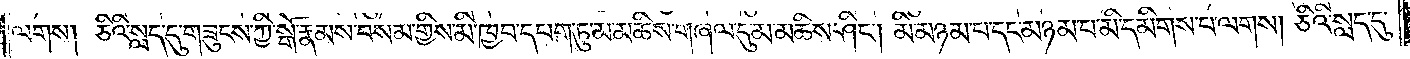ལགས། ཅིའི་སླད་དུ་གཟུངས་ཀྱི་སྒོ་རྣམས་བསམ་གྱིས་མི་ཁྱབ་དཔག་ཏུ་མ་མཆིས་གཞལ་དུ་མ་མཆིས་ཤིང༌། མི་མཉམ་པ་དང་མཉམ་པ་མི་དམིགས་པ་ལགས། ཅིའི་སླད་དུ་
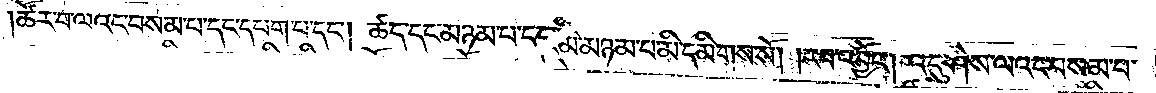ཚོར་བ་ལའང་བསམ་པ་དང་དཔག་པ་དང༌། ཚད་དང་མཉམ་པ་དང་མི་མཉམ་པ་མི་དམིགས་སོ། །རབ་འབྱོར། འདུ་ཤེས་ལའང་བསམ་པ་
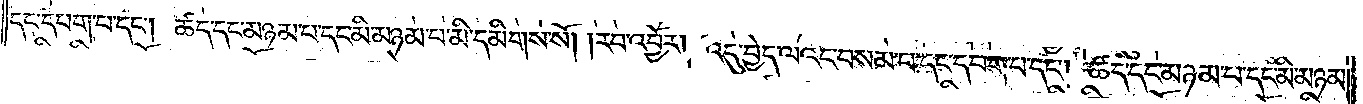དང་དཔག་པ་དང༌། ཚད་དང་མཉམ་པ་དང་མི་མཉམ་པ་མི་དམིགས་སོ། །རབ་འབྱོར། འདུ་བྱེད་ལའང་བསམ་པ་དང་དཔག་པ་དང༌། ཚད་དང་མཉམ་པ་དང་མི་མཉམ་
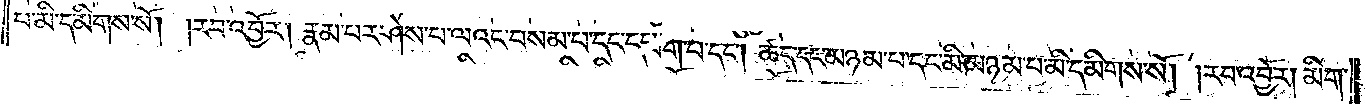པ་མི་དམིགས་སོ། །རབ་འབྱོར། རྣམ་པར་ཤེས་པ་ལའང་བསམ་པ་དང་དཔག་པ་དང༌། ཚད་དང་མཉམ་པ་དང་མི་མཉམ་པ་མི་དམིགས་སོ། །རབ་འབྱོར། མིག་
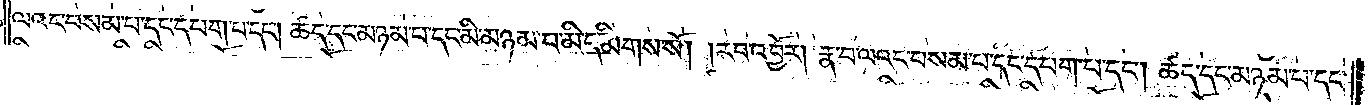ལའང་བསམ་པ་དང་དཔག་པ་དང༌། ཚད་དང་མཉམ་པ་དང་མི་མཉམ་པ་མི་དམིགས་སོ། །རབ་འབྱོར།རྣ་བ་ལའང་བསམ་པ་དང་དཔག་པ་དང༌། ཚད་དང་མཉམ་པ་དང་
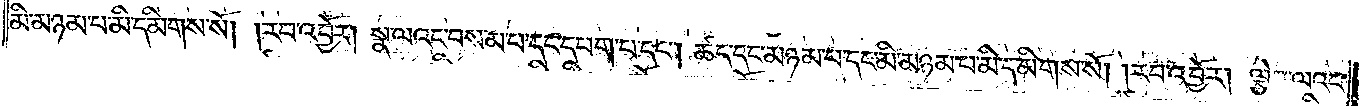མི་མཉམ་པ་མི་དམིགས་སོ། །རབ་འབྱོར། སྣ་ལའང་བསམ་པ་དང་དཔག་པ་དང༌། ཚད་དང་མཉམ་པ་དང་མི་མཉམ་པ་མི་དམིགས་སོ། །རབ་འབྱོར། ལྕེའི་ལའང་
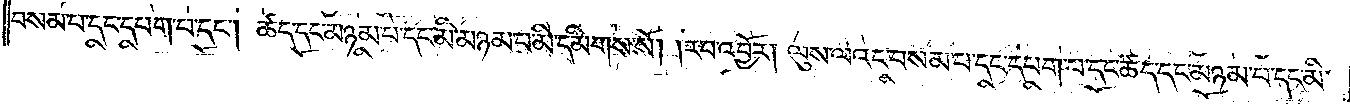བསམ་པ་དང་དཔག་པ་དང༌། ཚད་དང་མཉམ་པ་དང་མི་མཉམ་པ་མི་དམིགས་སོ། །རབ་འབྱོར། ལུས་ལའང་བསམ་པ་དང་དཔག་པ་དང་ཚད་དང་མཉམ་པ་དང་མི་
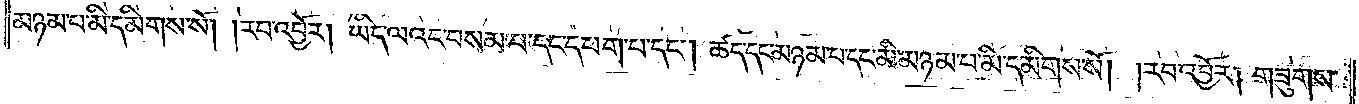མཉམ་པ་མི་དམིགས་སོ། །རབ་འབྱོར། ཡིད་ལའང་བསམ་པ་དང་དཔག་པ་དང༌། ཚད་དང་མཉམ་པ་དང་མི་མཉམ་པ་མི་དམིགས་སོ། །རབ་འབྱོར། གཟུགས་
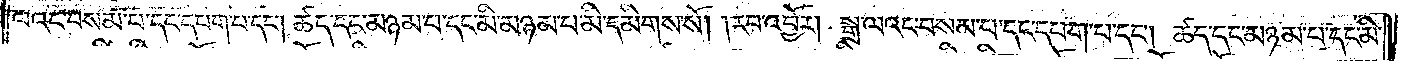ལའང་བསམ་པ་དང་དཔག་པ་དང༌། ཚད་དང་མཉམ་པ་དང་མི་མཉམ་པ་མི་དམིགས་སོ། །རབ་འབྱོར། སྒྲ་ལའང་བསམ་པ་དང་དཔག་པ་དང༌། ཚད་དང་མཉམ་པ་དང་མི་
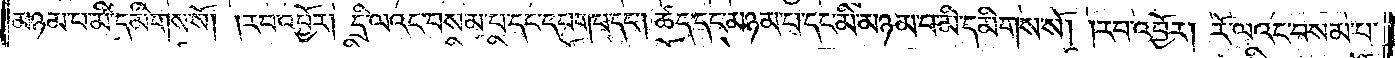མཉམ་པ་མི་དམིགས་སོ། །རབ་འབྱོར། དྲི་ལའང་བསམ་པ་དང་དཔག་པ་དང༌། ཚད་དང་མཉམ་པ་དང་མི་མཉམ་པ་མི་དམིགས་སོ། །རབ་འབྱོར། རོ་ལའང་བསམ་པ་
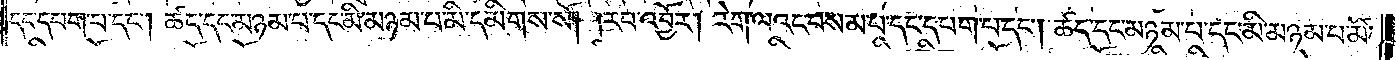དང་དཔག་པ་དང༌། ཚད་དང་མཉམ་པ་དང་མི་མཉམ་པ་མི་དམིགས་སོ། །རབ་འབྱོར། རེག་ལའང་བསམ་པ་དང་དཔག་པ་དང༌། ཚད་དང་མཉམ་པ་དང་མི་མཉམ་པ་མི་
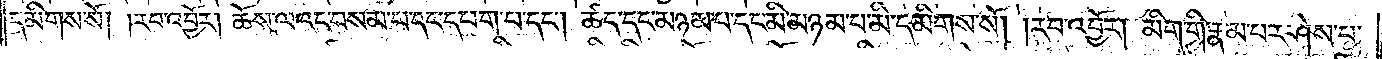དམིགས་སོ། །རབ་འབྱོར། ཆོས་ལའང་བསམ་པ་དང་དཔག་པ་དང༌། ཚད་དང་མཉམ་པ་དང་མི་མཉམ་པ་མི་དམིགས་སོ། །རབ་འབྱོར། མིག་གི་རྣམ་པར་ཤེས་པ་
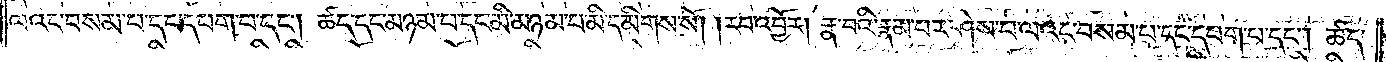ལའང་བསམ་པ་དང་དཔག་པ་དང༌། ཚད་དང་མཉམ་པ་དང་མི་མཉམ་པ་མི་དམིགས་སོ། །རབ་འབྱོར། རྣ་བའི་རྣམ་པར་ཤེས་པ་ལའང་བསམ་པ་དང་དཔག་པ་དང༌། ཚད་
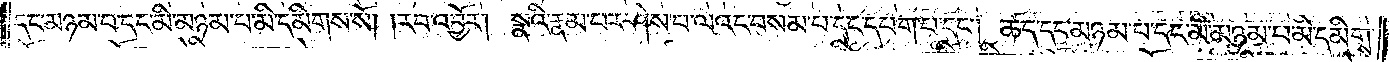དང་མཉམ་པ་དང་མི་མཉམ་པ་མི་དམིགས་སོ། །རབ་འབྱོར། སྣའི་རྣམ་པར་ཤེས་པ་ལའང་བསམ་པ་དང་དཔག་པ་དང༌། ཚད་དང་མཉམ་པ་དང་མི་མཉམ་པ་མི་དམིགས་
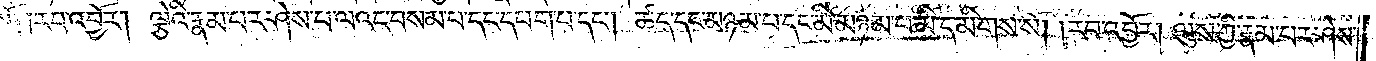སོ། །རབ་འབྱོར། ལྕེའི་རྣམ་པར་ཤེས་པ་ལའང་བསམ་པ་དང་དཔག་པ་དང༌། ཚད་དང་མཉམ་པ་དང་མི་མཉམ་པ་མི་དམིགས་སོ། །རབ་འབྱོར། ལུས་ཀྱི་རྣམ་པར་ཤེས་
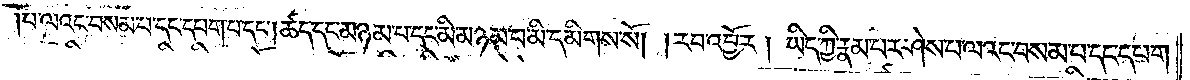པ་ལའང་བསམ་པ་དང་དཔག་པ་དང༌། ཚད་དང་མཉམ་པ་དང་མི་མཉམ་པ་མི་དམིགས་སོ། །རབ་འབྱོར། ཡིད་ཀྱི་རྣམ་པར་ཤེས་པ་ལའང་བསམ་པ་དང་དཔག་
